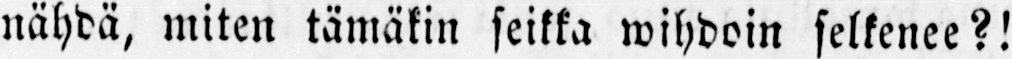nähdä, miten tämäkin seikka wihdoin selkenee?!
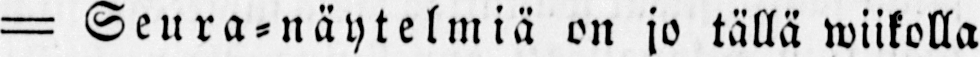— Seura-näytelmiä on jo tällä wiikolla
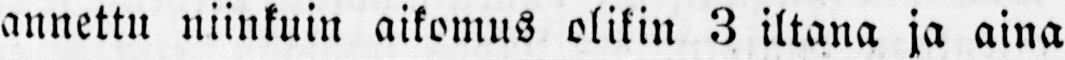annettu niinkuin aikomus olikin 3 iltana ja aina
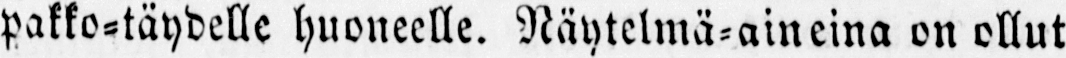pakko-täydelle huoneelle. Näytelmä-aineina on ollut
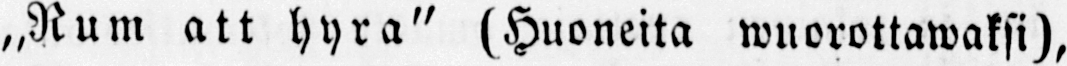„Rum att hyra" (Huoneita wuorottawaksi),
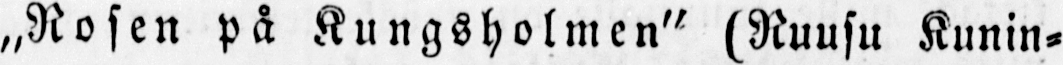„Rosen på Kungsholmen" (Ruusu Kunin-
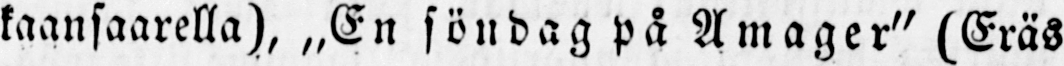kaansaarella), „En söndag på Amager" (Eräs
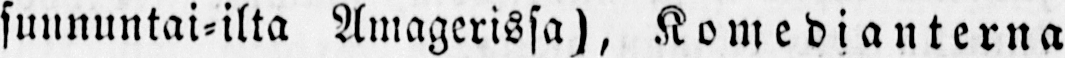sunnuntai-ilta Amagerissa), Komedianterna
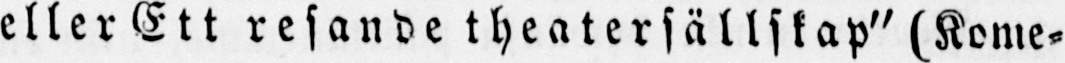eller Ett resande theatersällskap" (Kome-
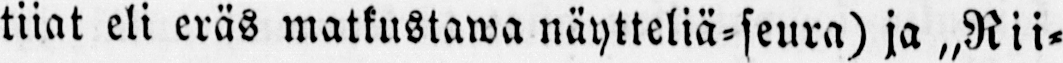tiiat eli eräs matkustawa näytteliä-seura) ja „Rii-
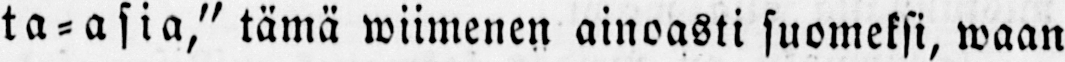ta-asia," tämä wiimenen ainoasti suomeksi, waan
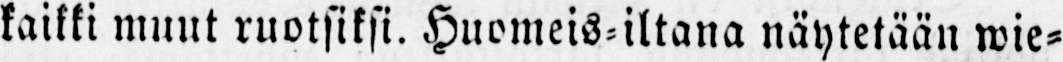kaikki muut ruotsiksi. Huomeis-iltana näytetään wie-
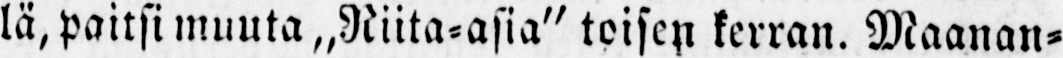lä, paitsi muuta „Riita-asia" toisen kerran. Maanan-
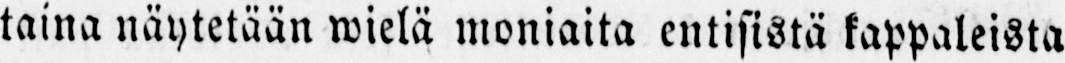taina näytetään wielä moniaita entisistä kappaleista
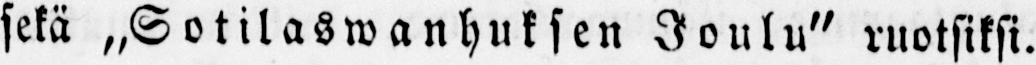sekä „Sotilaswanhuksen Joulu" ruotsiksi.
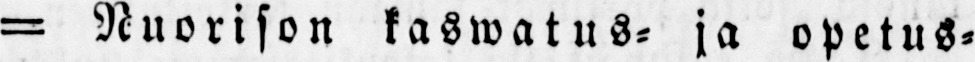— Nuorison kaswatus- ja opetus-
